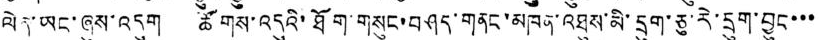ལེན་ཡང་ཞུས་འདུག ཚོགས་འདུའི་ཐོག་གསུང་བཤད་གནང་མཁན་འཐུས་མི་དྲུག་ཅུ་རེ་དྲུག་བྱུང་་་
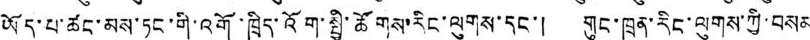ཡོད་པ་ཚང་མས་ཏང་གི་འགོ་ཁྲིད་འོག་སྤྱི་ཚོགས་རིང་ལུགས་དང་། གུང་ཁྲན་རིང་ལུགས་ཀྱི་བསམ
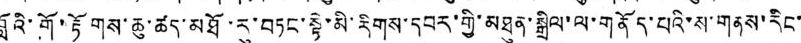བློའི་གོ་རྟོགས་ཆུ་ཚད་མཐོ་རུ་བཏང་སྟེ་མི་རིགས་དབར་གྱི་མཐུན་སྒྲིལ་ལ་གནོད་པའི་ས་གནས་རིང་
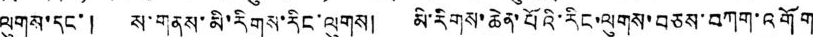ལུགས་དང་། ས་གནས་མི་རིགས་རིང་ལུགས། མི་རིགས་ཆེན་པོའི་རིང་ལུགས་བཅས་བཀག་འགོག
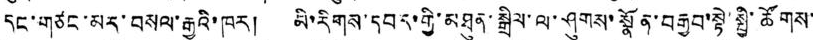དང་གཙང་མར་བསལ་རྒྱུའི་ཁར། མི་རིགས་དབར་གྱི་མཐུན་སྒྲིལ་ལ་ཤུགས་སྣོན་བརྒྱབ་སྟེ་སྤྱི་ཚོགས་
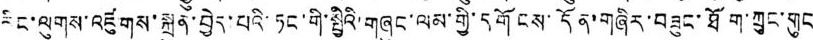རིང་ལུགས་འཛུགས་སྐྲུན་བྱེད་པའི་ཏང་གི་སྤྱིའི་གཞུང་ལམ་གྱི་དགོངས་དོན་གཞིར་བཟུང་ཐོག་ཀྲུང་གུང
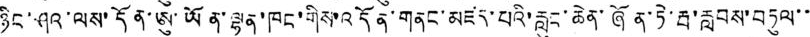ཉིང་ཤའ་ལས་དོན་ཨུ་ཡོན་ལྷན་ཁང་གིས་འདོན་གནང་མཛད་པའི་རླུང་ཆེན་ཞོན་ཏེ་རྦ་རླབས་བཏུལ་་
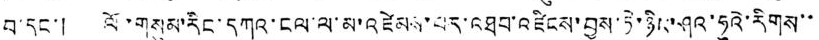བ་དང་། ལོ་གསུམ་རིང་དཀའ་ངལ་ལ་མ་འཛེམས་པར་འཐབ་འཛིངས་བྱས་ཏེ་ཉིང་ཤའ་ཧུའེ་རིགས་་
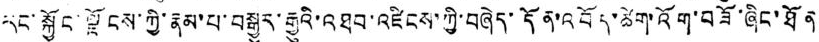རང་སྐྱོང་ལྗོངས་ཀྱི་རྣམ་པ་བསྒྱུར་རྒྱུའི་འཐབ་འཛིངས་ཀྱི་བཞེད་དོན་འབོད་ཚིག་འོག་བཟོ་ཞིང་ཐོན
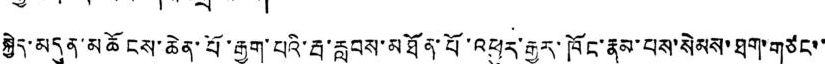སྐྱེད་མདུན་མཆོངས་ཆེན་པོ་རྒྱག་པའི་རྦ་རླབས་མཐོན་པོ་འཕྱུར་རྒྱུར་ཁོང་རྣམ་པས་སེམས་ཐག་གཙང་་
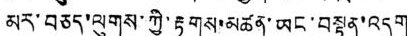མར་བཅད་ལུགས་ཀྱི་རྟགས་མཚན་ཡང་བསྟན་འདུག
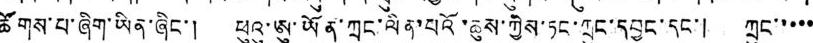ཚོགས་པ་ཞིག་ཡིན་ཞིང་། ཕུའུ་ཨུ་ཡོན་ཀྲང་ལིན་པའོ་ཆོས་ཀྱིས་ཏང་ཀྲུང་དབྱང་དང་། ཀྲུང་་་་་
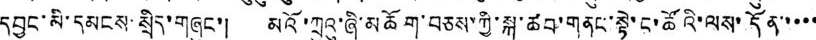དབྱང་མི་དམངས་སྲིད་གཞུང་། མའོ་ཀྲུའུ་ཞི་མཆོག་བཅས་ཀྱི་སྐུ་ཚབ་གནང་སྟེ་ང་ཚོའི་ལས་དོན་་་་་
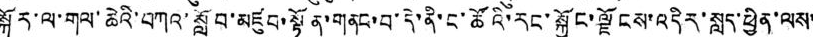སྐོར་ལ་གལ་ཆེའི་བཀའ་སློབ་མཛུབ་སྟོན་གནང་བ་དེ་ནི་ང་ཚོའི་རང་སྐྱོངས་འདིར་སླད་ཕྱིན་ལས་
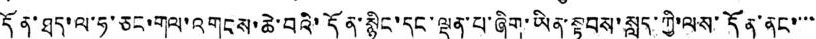དོན་ཐད་ལ་ཧ་ཅང་གལ་འགངས་ཆེ་བའི་དོན་སྙིང་དང་ལྡན་པ་ཞིག་ཡིན་སྟབས་སླད་ཀྱི་ལས་དོན་ནང་་་་
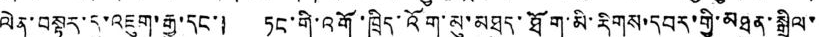ལེན་བསྟར་དུ་འཇུག་རྒྱུ་དང་། ཏང་གི་འགོ་ཁྲིད་འགོ་མུ་མཐུད་ཐོག་མི་རིགས་དབར་གྱི་མཐུན་སྒྲིལ་
